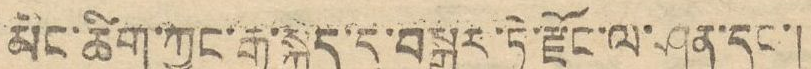མིང་ཚིག་ཀྱང་རྒྱ་སྐད་དུ་བསྒྱུར་ཏེ་རྫོང་ལ་ཤན་དང་།
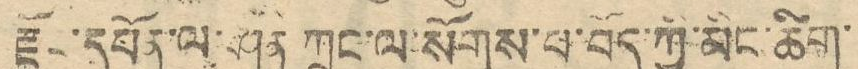རྫོང་དཔོན་ལ་ཤན་ཀྲང་ལ་སོགས་པ་བོད་ཀྱི་མིང་ཚིག་
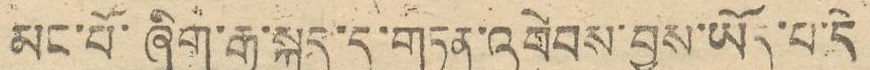མང་པོ་ཞིག་རྒྱ་སྐད་དུ་གཏན་འབེབས་བྱས་ཡོད་པ་དེ
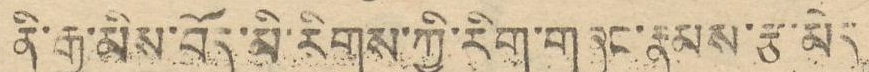ནི་རྒྱ་མིས་བོད་མི་རིགས་ཀྱི་རིག་གཞུང་རྣམས་རྩ་མེད
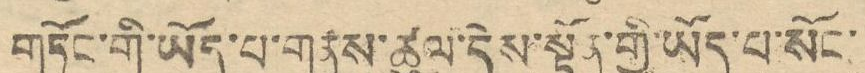གཏོང་གི་ཡོད་པ་གནས་ཚུལ་དེས་སྟོན་གྱི་ཡོད་པ་སོང་
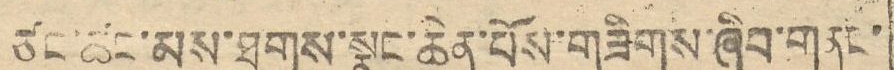ཙང་ཚང་མས་ཐུགས་སྣང་ཆེན་པོས་གཟིགས་ཞིབ་གནང་
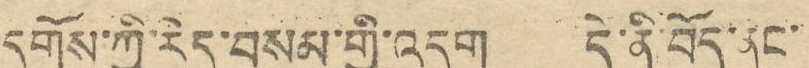དགོས་ཀྱི་རེད་བསམ་གྱི་འདུག དེ་ནི་བོད་ནང་
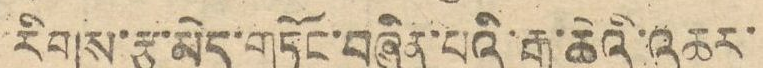རིགས་རྩ་མེད་གཏོང་བཞིན་པའི་རྒྱ་ཆེའི་འཆར་
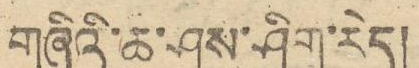གཞིའི་ཆ་ཤས་ཤིག་རེད།
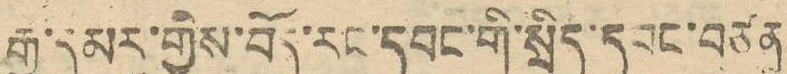རྒྱ་དམར་གྱིས་བོད་རང་དབང་གི་སྲིད་དབང་བཙན
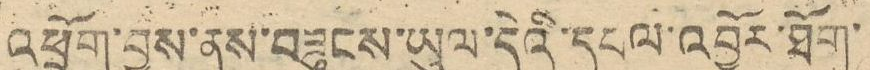འཕྲོག་བྱས་ནས་བཟུངས་ཡུལ་དེའི་དཔལ་འབྱོར་ཐོག་
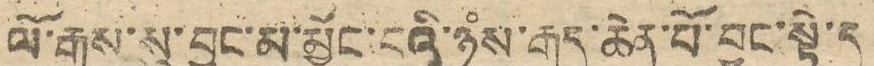ལོ་རྒྱུས་སུ་བྱུང་མ་མྱོང་ངའི་ཉཾས་རྒུད་ཆེན་པོ་བྱུང་སྟེ་ད
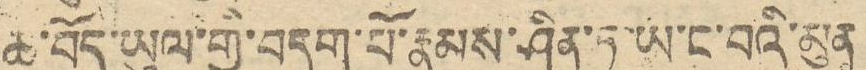ཆ་བོད་ཡུལ་གྱི་བདག་པོ་རྣམས་ཤིན་ཏུ་ཡ་ང་བའི་མུན
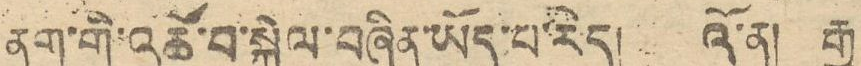ནག་གི་འཚོ་བ་སྐྱེལ་བཞིན་ཡོད་པ་རེད། འོ་ན། རྒྱ
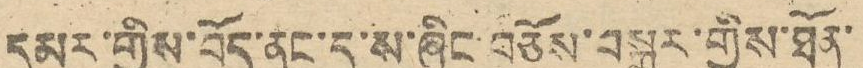དམར་གྱིས་བོད་ནང་དུ་ས་ཞིང་བཅོས་བསྒྱུར་གྱིས་ཐོན་
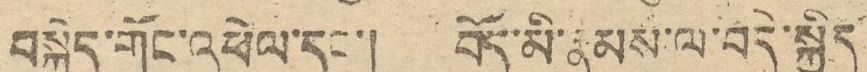བསྐྱེད་གོང་འཕེལ་དང་། བོད་མི་རྣམས་ལ་བདེ་སྐྱིད
